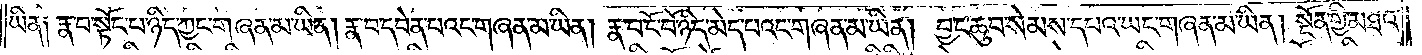ཡིན། རྣ་བ་སྟོང་པ་ཉིད་ཀྱང་གཞན་མ་ཡིན། རྣ་བ་དབེན་པའང་གཞན་མ་ཡིན། རྣ་བ་ངོ་བོ་ཉིད་མེད་པའང་གཞན་མ་ཡིན། བྱང་ཆུབ་སེམས་དཔའ་ཡང་གཞན་མ་ཡིན། སྔོན་གྱི་མཐའ་
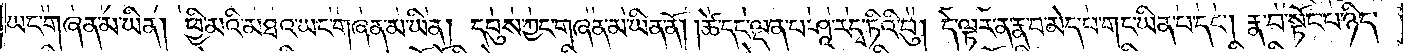ཡང་གཞན་མ་ཡིན། ཕྱི་མའི་མཐའ་ཡང་གཞན་མ་ཡིན། དབུས་ཀྱང་གཞན་མ་ཡིན་ནོ། །ཚེ་དང་ལྡན་པ་ཤཱ་རདྭ་ཏིའི་བུ། དེ་ལྟར་ན་རྣ་བ་མེད་པ་གང་ཡིན་པ་དང༌། རྣ་བ་སྟོང་པ་ཉིད་
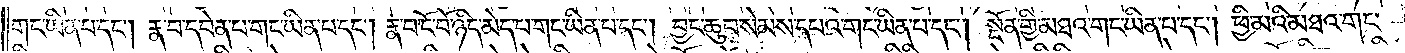གང་ཡིན་པ་དང༌། རྣ་བ་དབེན་པ་གང་ཡིན་པ་དང༌། རྣ་བ་ངོ་བོ་ཉིད་མེད་པ་གང་ཡིན་པ་དང༌། བྱང་ཆུབ་སེམས་དཔའ་གང་ཡིན་པ་དང༌། སྔོན་གྱི་མཐའ་གང་ཡིན་པ་དང༌། ཕྱི་མའི་མཐའ་གང་
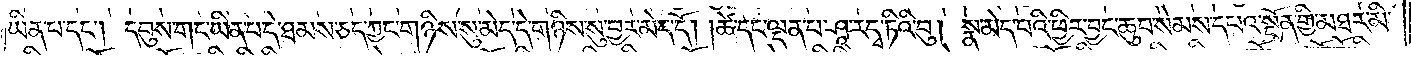ཡིན་པ་དང༌། དབུས་གང་ཡིན་པ་དེ་ཐམས་ཅད་ཀྱང་གཉིས་སུ་མེད་དེ་གཉིས་སུ་བྱར་མེད་དོ། །ཚེ་དང་ལྡན་པ་ཤཱ་རདྭ་ཏིའི་བུ། སྣ་མེད་པའི་ཕྱིར་བྱང་ཆུབ་སེམས་དཔའ་སྔོན་གྱི་མཐར་མི་
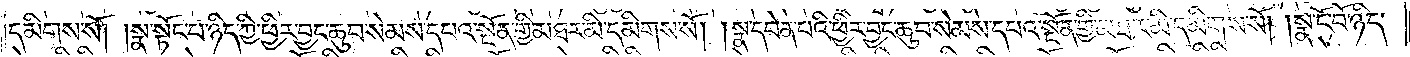དམིགས་སོ། །སྣ་སྟོང་པ་ཉིད་ཀྱི་ཕྱིར་བྱང་ཆུབ་སེམས་དཔའ་སྔོན་གྱི་མཐར་མི་དམིགས་སོ། །སྣ་དབེན་པའི་ཕྱིར་བྱང་ཆུབ་སེམས་དཔའ་སྔོན་གྱི་མཐར་མི་དམིགས་སོ། །སྣ་ངོ་བོ་ཉིད་
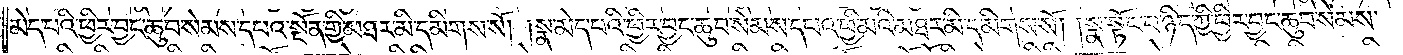མེད་པའི་ཕྱིར་བྱང་ཆུབ་སེམས་དཔའ་སྔོན་གྱི་མཐར་མི་དམིགས་སོ། །སྣ་མེད་པའི་ཕྱིར་བྱང་ཆུབ་སེམས་དཔའ་ཕྱི་མའི་མཐར་མི་དམིགས་སོ། །སྣ་སྟོང་པ་ཉིད་ཀྱི་ཕྱིར་བྱང་ཆུབ་སེམས་
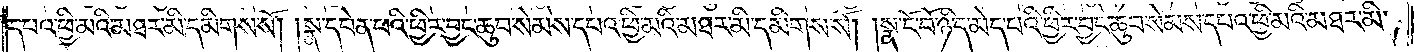དཔའ་ཕྱི་མའི་མཐར་མི་དམིགས་སོ། །སྣ་དབེན་པའི་ཕྱིར་བྱང་ཆུབ་སེམས་དཔའ་ཕྱི་མའི་མཐར་མི་དམིགས་སོ། །སྣ་ངོ་བོ་ཉིད་མེད་པའི་ཕྱིར་བྱང་ཆུབ་སེམས་དཔའ་ཕྱི་མའི་མཐར་མི་
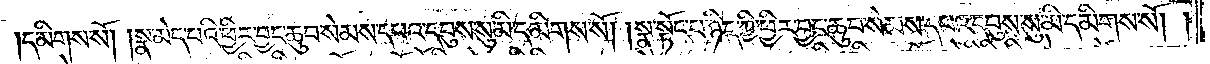དམིགས་སོ། །སྣ་མེད་པའི་ཕྱིར་བྱང་ཆུབ་སེམས་དཔའ་དབུས་སུ་མི་དམིགས་སོ། །སྣ་སྟོང་པ་ཉིད་ཀྱི་ཕྱིར་བྱང་ཆུབ་སེམས་དཔའ་དབུས་སུ་མི་དམིགས་སོ།
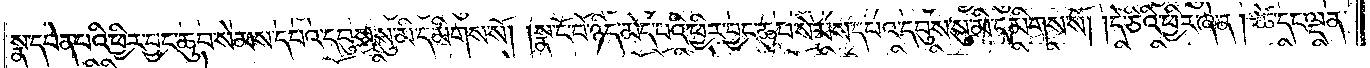སྣ་དབེན་པའི་ཕྱིར་བྱང་ཆུབ་སེམས་དཔའ་དབུས་སུ་མི་དམིགས་སོ། །སྣ་ངོ་བོ་ཉིད་མེད་པའི་ཕྱིར་བྱང་ཆུབ་སེམས་དཔའ་དབུས་སུ་མི་དམིགས་སོ། །དེ་ཅིའི་ཕྱིར་ཞེ་ན། ཚེ་དང་ལྡན་
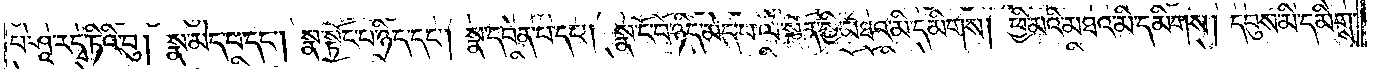པ་ཤཱ་རདྭ་ཏིའི་བུ། སྣ་མེད་པ་དང༌། སྣ་སྟོང་པ་ཉིད་དང༌། སྣ་དབེན་པ་དང༌། སྣ་ངོ་བོ་ཉིད་མེད་པ་ལ་སྔོན་གྱི་མཐའ་མི་དམིགས། ཕྱི་མའི་མཐའ་མི་དམིགས། དབུས་མི་དམིགས་
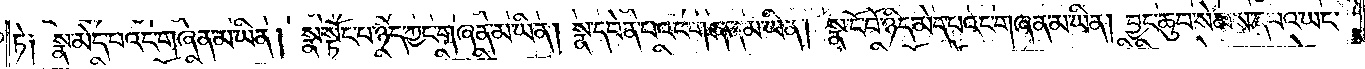ཏེ༑ སྣ་མེད་པའང་གཞན་མ་ཡིན། སྣ་སྟོང་པ་ཉིད་ཀྱང་གཞན་མ་ཡིན། སྣ་དབེན་པའང་གཞན་མ་ཡིན། སྣ་ངོ་བོ་ཉིད་མེད་པའང་གཞན་མ་ཡིན། བྱང་ཆུབ་སེམས་དཔའ་ཡང་
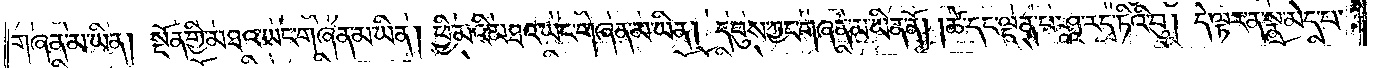གཞན་མ་ཡིན། སྔོན་གྱི་མཐའ་ཡང་གཞན་མ་ཡིན། ཕྱི་མའི་མཐའ་ཡང་གཞན་མ་ཡིན། དབུས་ཀྱང་གཞན་མ་ཡིན་ནོ། །ཚེ་དང་ལྡན་པ་ཤཱ་རདྭ་ཏིའི་བུ། དེ་ལྟར་ན་སྣ་མེད་པ་
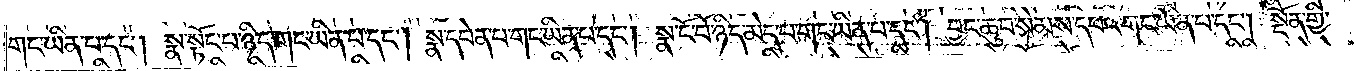གང་ཡིན་པ་དང༌། སྣ་སྟོང་པ་ཉིད་གང་ཡིན་པ་དང༌། སྣ་དབེན་པ་གང་ཡིན་པ་དང༌། སྣ་ངོ་བོ་ཉིད་མེད་པ་གང་ཡིན་པ་དང༌། བྱང་ཆུབ་སེམས་དཔའ་གང་ཡིན་པ་དང༌། སྔོན་གྱི་
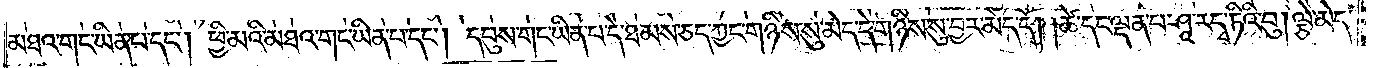མཐའ་གང་ཡིན་པ་དང༌། ཕྱི་མའི་མཐའ་གང་ཡིན་པ་དང༌། དབུས་གང་ཡིན་པ་དེ་ཐམས་ཅད་ཀྱང་གཉིས་སུ་མེད་དེ་གཉིས་སུ་བྱར་མེད་དོ། །ཚེ་དང་ལྡན་པ་ཤཱ་རདྭ་ཏིའི་བུ། ལྕེ་མེད་
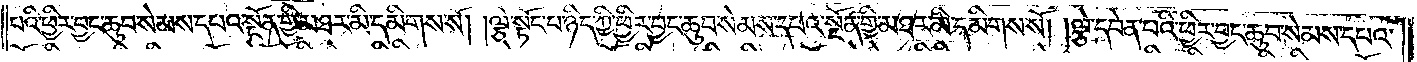པའི་ཕྱིར་བྱང་ཆུབ་སེམས་དཔའ་སྔོན་གྱི་མཐར་མི་དམིགས་སོ། །ལྕེ་སྟོང་པ་ཉིད་ཀྱི་ཕྱིར་བྱང་ཆུབ་སེམས་དཔའ་སྔོན་གྱི་མཐར་མི་དམིགས་སོ། །ལྕེ་དབེན་པའི་ཕྱིར་བྱང་ཆུབ་སེམས་དཔའ་
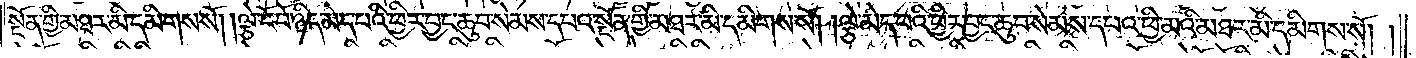སྔོན་གྱི་མཐར་མི་དམིགས་སོ། །ལྕེ་ངོ་བོ་ཉིད་མེད་པའི་ཕྱིར་བྱང་ཆུབ་སེམས་དཔའ་སྔོན་གྱི་མཐར་མི་དམིགས་སོ། །ལྕེ་མེད་པའི་ཕྱིར་བྱང་ཆུབ་སེམས་དཔའ་ཕྱི་མའི་མཐར་མི་དམིགས་སོ། །
